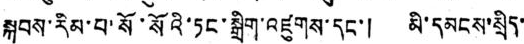སྐབས་རིམ་པ་སོ་སོའི་ཏང་སྒྲིག་འཛུགས་དང་། མི་དམངས་སྲིད་
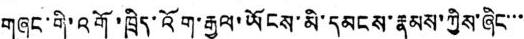གཞུང་གི་འགོ་ཁྲིད་འོག་རྒྱལ་ཡོངས་མི་དམངས་རྣམས་ཀྱིས་ཞིང་་་
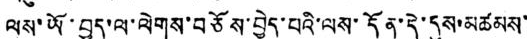ལས་ཡོ་བྱད་ལ་ལེགས་བཅོས་བྱེད་པའི་ལས་དོན་དེ་དུས་མཚམས་
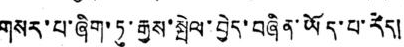གསར་པ་ཞིག་ཏུ་རྒྱས་སྤེལ་བྱེད་བཞིན་ཡོད་པ་རེད།
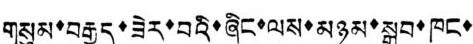གསུམ་བརྒྱད་ཟེར་བའི་ཞིང་ལས་མཉམ་སྒྲུབ་ཁང་
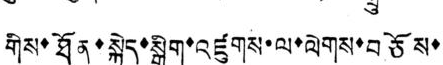གིས་ཐོན་སྐྱེད་སྒྲིག་འཛུགས་ལ་ལེགས་བཅོས་
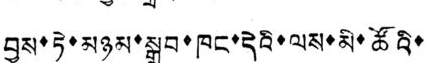བྱས་ཏེ་མཉམ་སྒྲུབ་ཁང་དེའི་ལས་མི་ཚོའི་
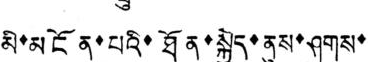མི་མངོན་པའི་ཐོན་སྐྱེད་ནུས་ཤུགས་
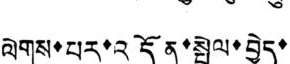ལེགས་པར་འདོན་སྤེལ་བྱེད་
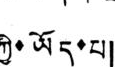ཀྱི་ཡོད་པ།
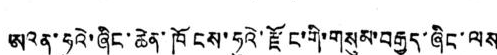ཨའན་ཧུའེ་ཞིང་ཆེན་ཁོངས་ཧུའེ་རྫོང་གི་གསུམ་བརྒྱད་ཞིང་ལས
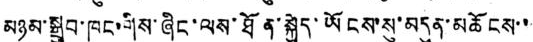མཉམ་སྒྲུབ་ཁང་གིས་ཞིང་ལས་ཐོན་སྐྱེད་ཡོངས་སུ་མདུན་མཆོངས་་
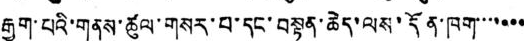རྒྱག་པའི་གནས་ཚུལ་གསར་བ་དང་བསྟུན་ཆེད་ལས་དོན་ཁག་་་་་་་
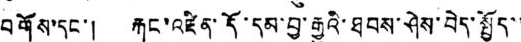བགོས་དང་། རྐང་འཛིན་དོ་དམ་བྱ་རྒྱུའི་ཐབས་ཤེས་བེད་སྤྱོད་་
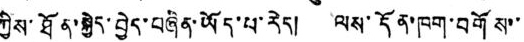ཀྱིས་ཐོན་སྐྱེད་བྱེད་བཞིན་ཡོད་པ་རེད། ལས་དོན་ཁག་བགོས་་
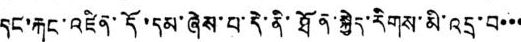དང་རྐང་འཛིན་དོ་དམ་ཞེས་པ་དེ་ནི་ཐོན་སྐྱེད་རིགས་མི་འདྲ་བ་་་
